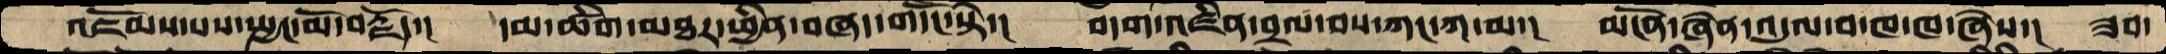འཇོམས་པས་སྤྱང་མོ་བརྗོད་།  དམ་ཚིག་མཐར་ཕྱིན་བཞད་གདོང་སྟེ་།  བདག་འཛིན་བྲལ་བས་ཀང་ཀ་མ་།  མངོན་ཞེན་འདུལ་བ་ཁ་ཁ་ཞེས་།  ཟབ་
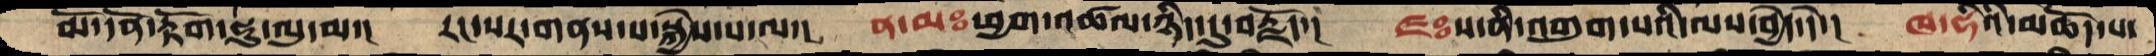མོ་དོན་རྟོག་ཧུ་ལུ་མ་།  རང་སར་གནས་པ་སྐྱེས་པ་ལ་།  ན་མཿཕྱག་འཚལ་ཉིད་དུ་བརྗོད་།  ཛཿ་ས་ནི་འགུག་པའི་ལས་བྱེད་དེ་།  ཁ་ཧིའི་མཆོད་པ་
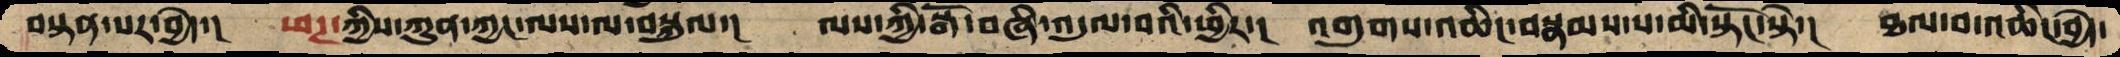བསྟན་པར་བྱེད་།  ཕཊ་ཀྱིས་ཀུན་ཀྱང་ལས་ལ་བསྐུལ་།  ལས་ཀྱི་སྒོ་བཞི་འདུལ་བའི་ཕྱིར་།  འགུགས་འཆིང་བསྣམས་པ་མི་སྟོང་སྟེ་།  ཐལ་བ་འཆིང་བྱེད་
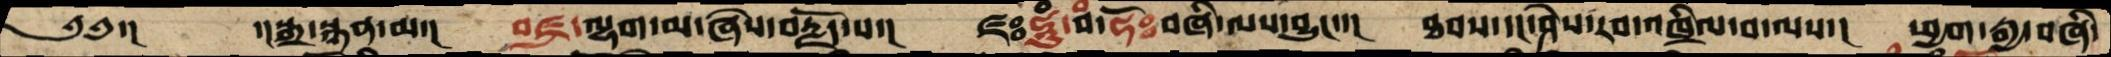༄༅་།       ་།སྒྲ་སྙན་མ་།   བཛྲ་ལྷག་མ་ཞེས་བརྗོད་པ་།  ཛཿཧཱུཾ་བཾ་ཧོཿབཞི་ལས་བྱུང་་།   ཐབས་དང་ཤེས་རབ་འཁྲིལ་བ་ལས་།   ཕྱག་རྒྱ་བཞི་
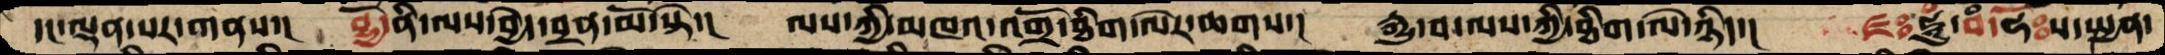དང་ལྡན་པར་གནས་།  བྷྱོ་ནི་ལས་བྱེད་བྲན་མོ་སྟེ་།   ལས་ཀྱི་མཁའ་འགྲོ་ཐིག་ལེར་ཆགས་།   རྒྱུ་བ་ལས་ཀྱི་ཐིག་ལེ་ཉིད་།    ཛཿཧཱུཾ་བཾ་ཧོཿས་སྤྱན་
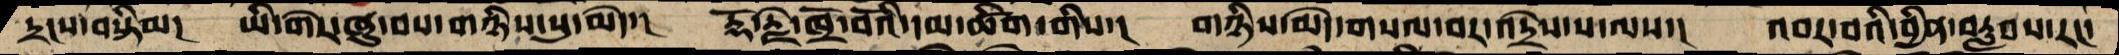དྲངས་བསྟིམ།  ཡི་གེར་ཞུ་བས་གཉིས་སུ་མེད་།   རྡོ་རྗེ་ཁྲོ་བོའི་དམ་ཚིག་གིས་།   གཉིས་མེད་གསལ་བར་འདྲེས་པ་ལས་།    འབར་བའི་བྱིན་བརླབས་རང་
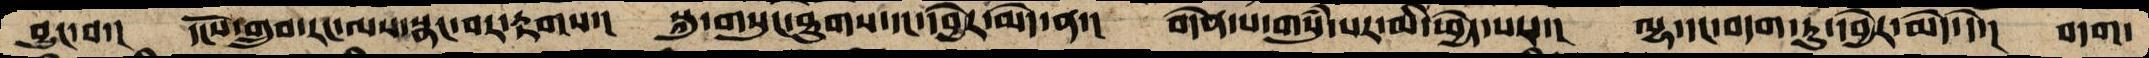བྱུང་བ་།   དངོས་གྲུབ་རང་ལས་སྣང་བར་རྟགས་།  སྐུ་གསུང་ཐུགས་དང་དབྱེར་མེད་ན་།   བདེན་པ་གསུཾ་པར་མི་ཕྱེད་པས་།    ལྷ་དང་བདག་ཏུ་དབྱེར་མེད་དེ་།  བདག་
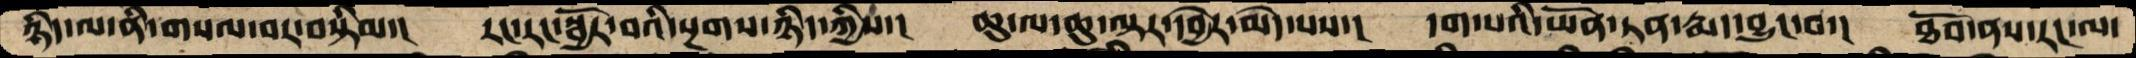ཉིད་ལ་ནི་གསལ་བར་བསྟིམ་།   རང་རང་སྦྱོར་བའི་སྔགས་ཉིད་ཀྱིས་།   ཆུ་ལ་ཆུ་ལྟར་དབྱེར་མེ་པས་།   དག་པའི་ཡོན་ཏན་རྨད་བྱུང་བ་།  ཐོབ་ནས་རང་ལ་
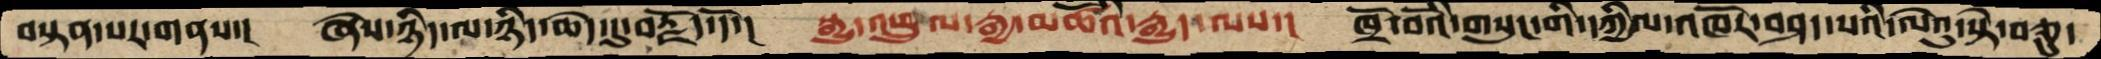བསྟན་པར་གནས་།   ཞེས་ཉིད་ལ་ཉིད་ཆེད་དུ་བརྗོད་དོ་།   སྒྱུ་འཕྲུལ་རྒྱ་མཚོའི་རྒྱུད་ལས་།  ཁྲོ་བོའི་གསུང་གི་དཀྱིལ་འཁོར་བཤད་པའི་ལེའུ་སྟེ་བཅུ་
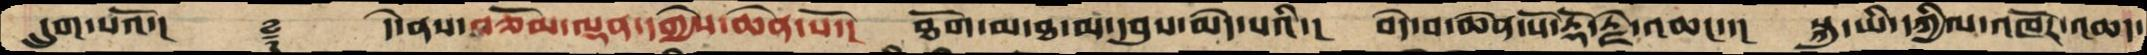དྲུག་པའོ་།    ࿑   དེ་ནས་བཅོམ་ལྡན་དགྱེས་ཆེན་པོ་།  ཐོག་མ་ཐ་མ་དབུས་མེད་པའི་།  བདེ་བ་ཆེན་པོ་རྡོ་རྗེ་འཆང་་།  སྐུ་ཡི་དཀྱིལ་འཁོར་འཆད་
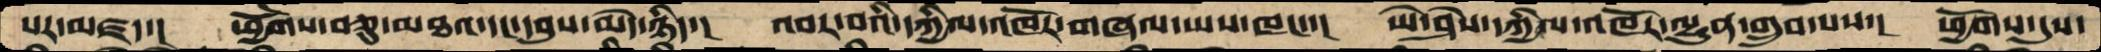པར་མཛད་།  ཕྱོགས་བཅུ་མཐའ་དང་དབུས་མེད་ཉིད་།   འབར་བའི་དཀྱིལ་འཁོར་གཞལ་ཡས་ཁང་་།  ཡེ་ཤེས་དཀྱིལ་འཁོར་ལྷུན་གྲུབ་པས་།  ཕྱོགས་དུས་
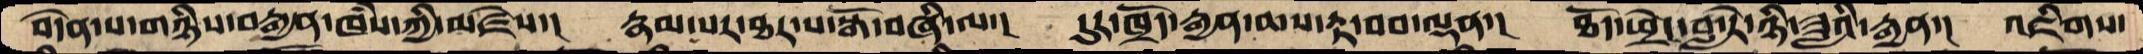བདེན་པ་གཉིས་བརྒྱན་ཁཾས་ཀྱི་མཛེས་།   རྣམ་པར་ཐར་པ་སྒོ་བཞི་ལ་།   དུར་ཁྲོད་རྒྱན་ཆས་རྟ་བབ་ལྡན་།  ཐོད་ཕྲེང་བླ་རེ་ཉི་ཟླའི་རྒྱན་།  འཇིགས་
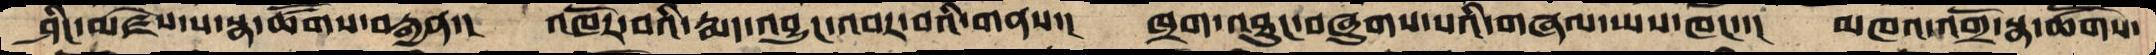ཤིང་མཛེས་པ་སྣ་ཚོགས་བརྒྱན་།  འཁོར་བའི་རྨད་འབྱུང་འབར་བའི་གནས་།  ཁྲག་འཐུང་བཞུགས་པའི་གཞལ་ཡས་ཁང་་།  མཁའ་འགྲོ་སྣ་ཚོགས་
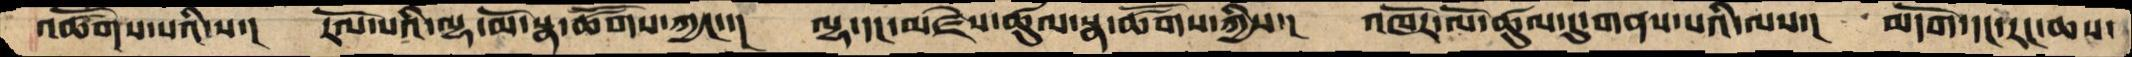འཚོགས་པའི་ས་།  རོལ་པའི་ལྷ་མོ་སྣ་ཚོགས་ཀྱང་་།  ལྷ་དང་མཛེས་ཚུལ་སྣ་ཚོགས་ཀྱིས་།  འཁོར་ལོ་ཚུལ་དུ་གནས་པའི་ལས་།  མདོག་དང་རང་ཆས་
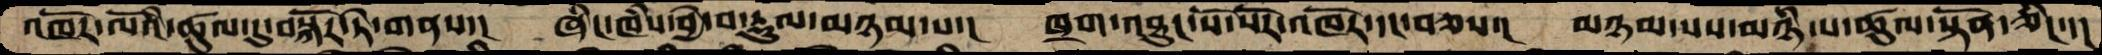འཁོར་ལོའི་ཚུལ་དུ་བསྐོར་ཏེ་གནས་།   ཞིང་ཁཾས་བྱེ་བ་རྡུལ་མཉམ་པ་།  ཁྲག་འཐུང་སོ་སོར་འཁོར་དང་བཅས་།  མཉམ་པས་མཉཾ་པ་ཚུལ་སྟོན་ཅིང་་།
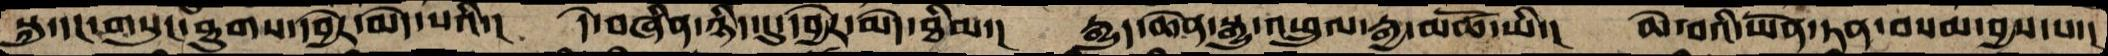སྐུ་དང་གསུང་ཐུགས་དབྱེར་མེད་པའི་།  དེ་བཞིན་ཉིད་དུ་དབྱེར་མེད་ཐིམ་།  རྒྱུད་ཆེན་སྒྱུ་འཕྲུལ་རྒྱ་མཚོ་ཡི་།  ཆེ་བའི་ཡོན་ཏན་བསམ་བྱས་པ་།
